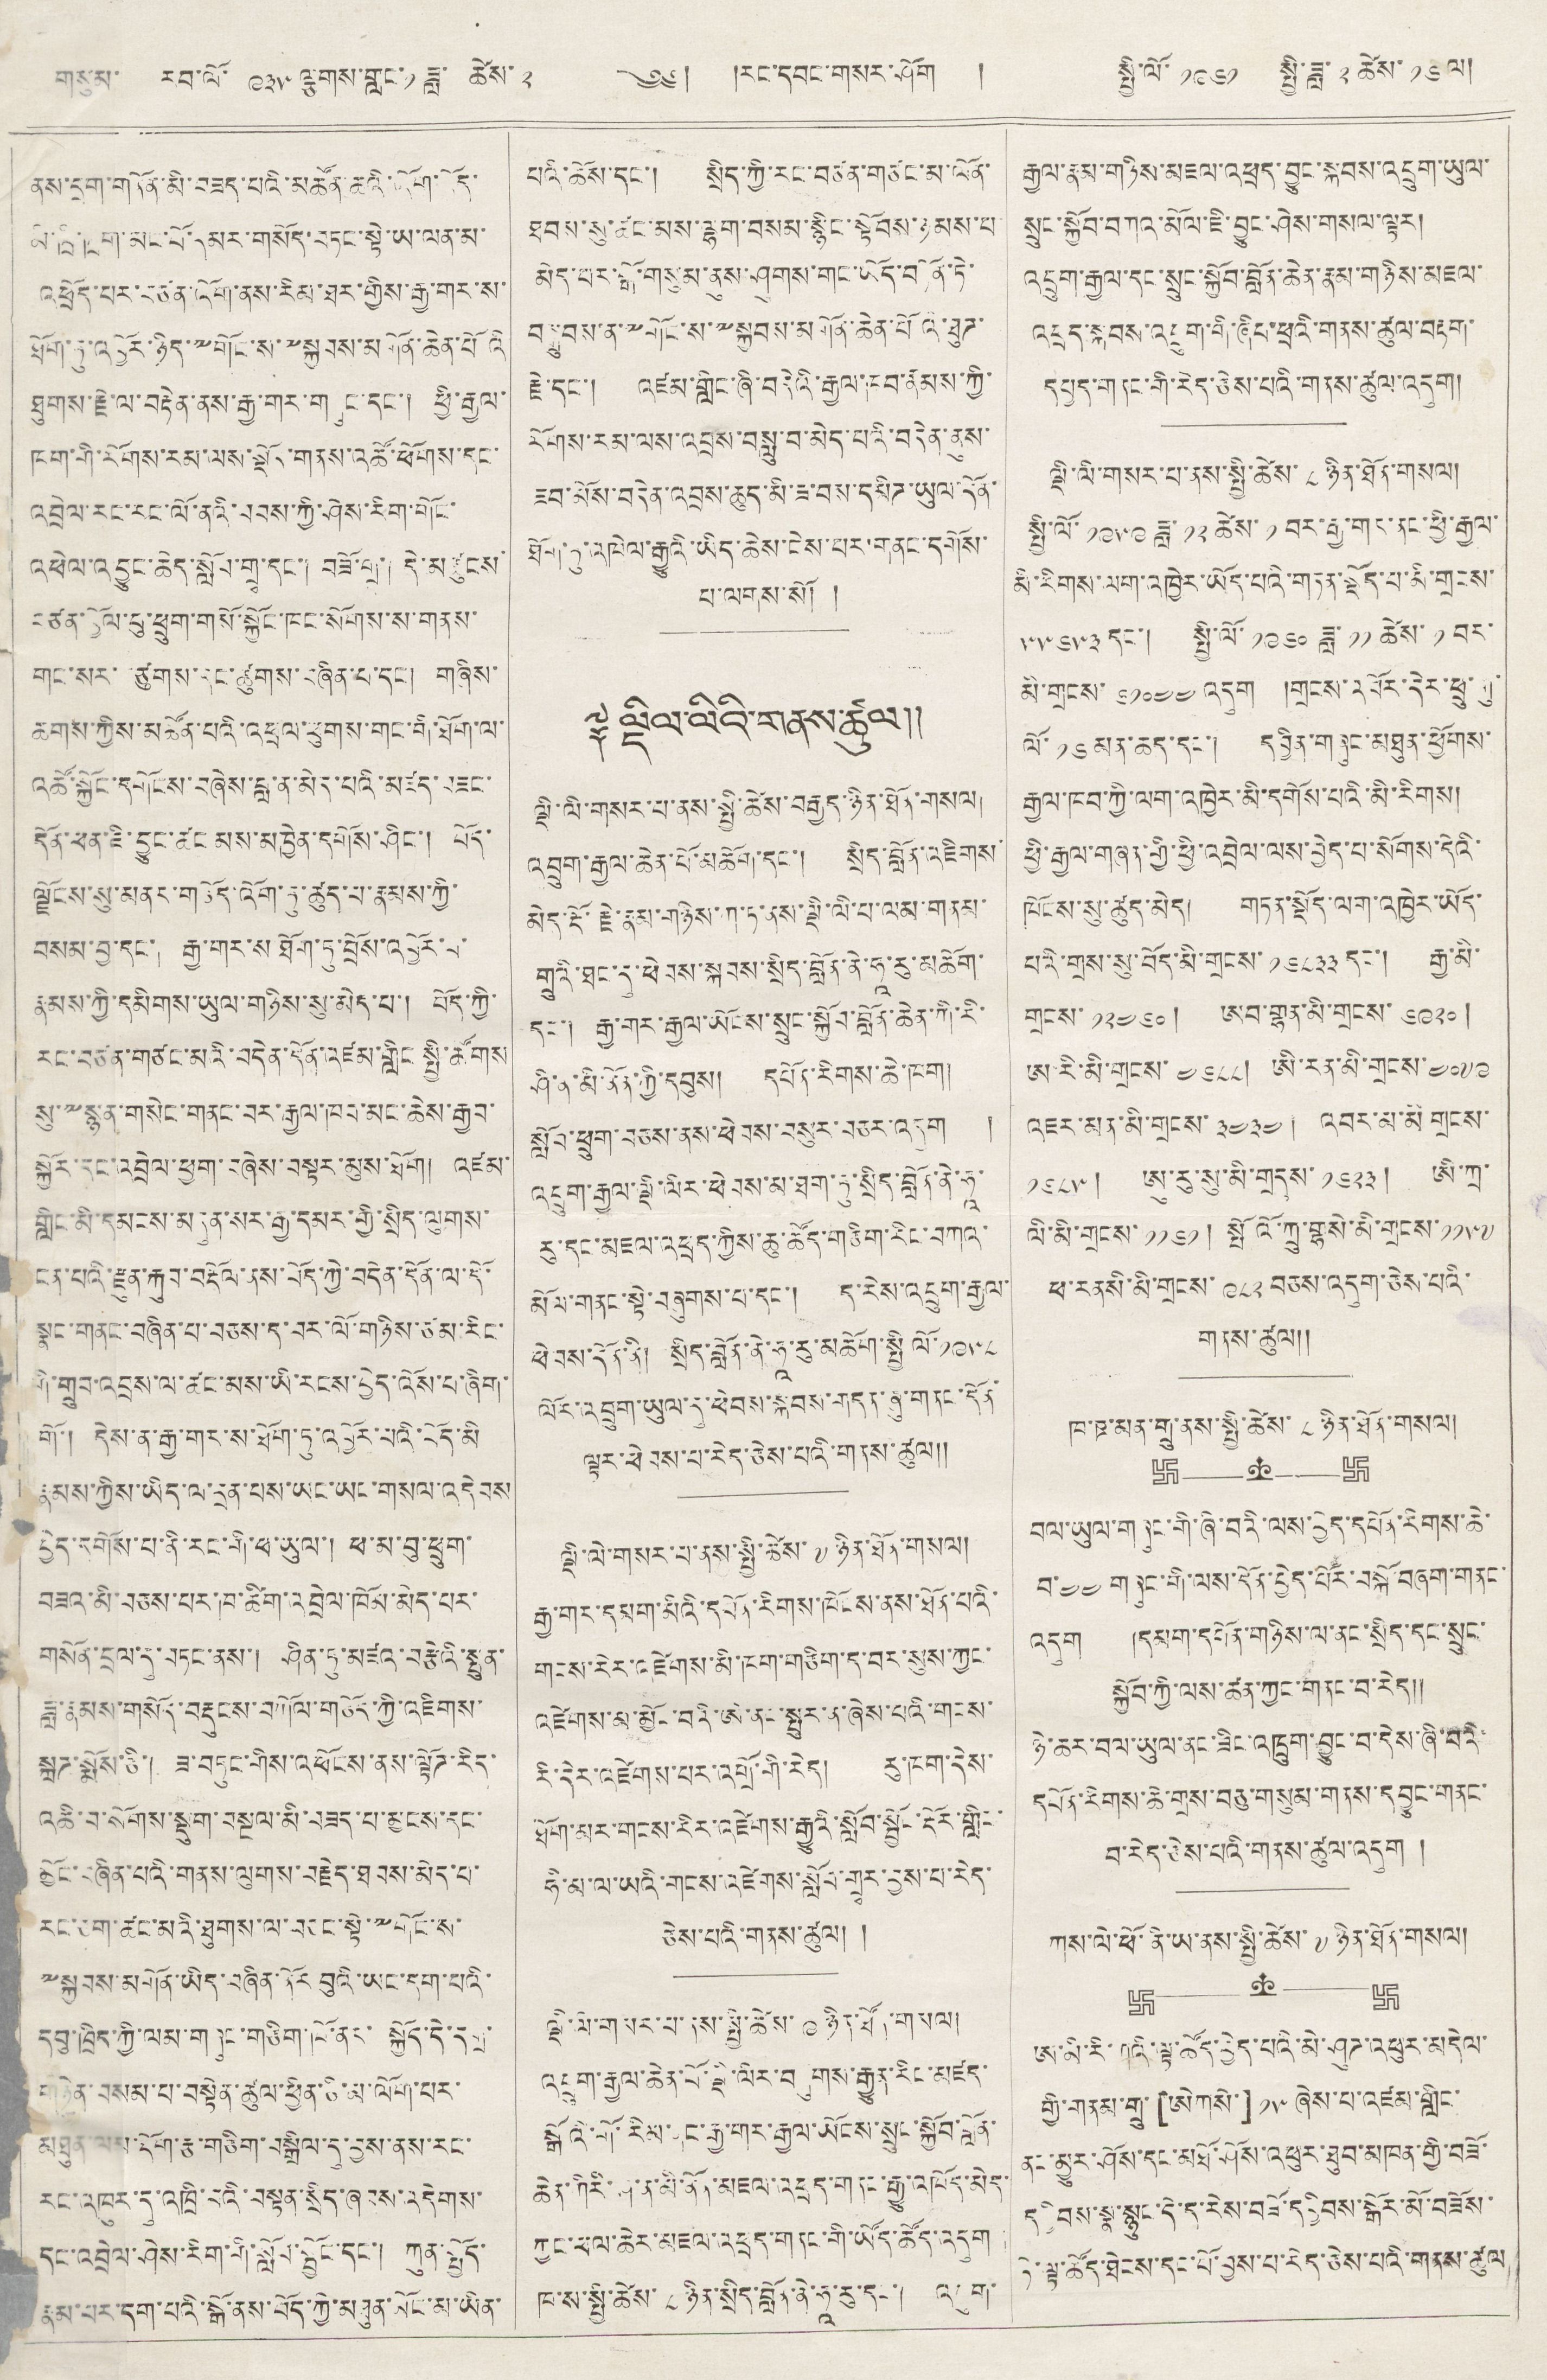གསུམ་ རབ་ལོ་ ༩༣༥ ལྕགས་གླང་༡ཟླ་ ཚེས་ ༢ ༄༅། །རང་དབང་གསར་ཤོག ། སྤྱི་ལོ་ ༡༩༦༡ སྤྱི་ཟླ་ ༢ ཚེས་ ༡༦ ལ།
ནས་དྲག་གནོན་མི་བཟད་པའི་མཚོན་ཆའི་འོག་བོད་
མི་ཁྲི་ཁྲག་མང་པོ་དམར་གསོད་བཏང་སྟེ་ཡ་ལན་མ་
འཕྲོད་པར་མཙན་འོག་ནས་རིམ་ཐར་གྱིས་རྒྱ་གར་ས་
ཐོག་ཏུ་འབྱོར་ཉིད་༸གོང་ས་༸སྐྱབས་མགོན་ཆེན་པོའི་
ཐུགས་རྗེ་ལ་བརྟེན་ནས་རྒྱ་གར་གཞུང་དང་། ཕྱི་རྒྱལ་
ཁག་གི་རོགས་རམ་ལས་སྡོད་གནས་འཚོ་ཕོགས་དང་
འབྲེལ་རང་རང་ལོ་ནའི་བབས་ཀྱི་ཤེས་རིག་གོང་
འཕེལ་འབྱུང་ཆེད་སློབ་གྲྭ་དང་། བཟོ་གྲྭ་། དེ་མཚུངས་
བཙན་བྱོལ་བུ་ཕྲུག་གསོ་སྐྱོང་ཁང་སོགས་ས་གནས་
གང་སར་གཙུགས་དང་ཚུགས་བཞིན་པ་དང་། གཞིས་
ཆགས་ཀྱིས་མཚོན་པའི་འཕྲལ་ཕུགས་གང་གི་ཐོག་ལ་
འཚོ་སྐྱོང་དགོངས་བཞེས་བླ་ན་མེད་པའི་མཛད་བཟང་
དོན་ཕན་ཇི་བྱུང་ཚང་མས་མཁྱེན་དགོས་ཤིང་། བོད་
ལྗོངས་སུ་མནར་གཅོད་འོག་ཏུ་ཚུད་པ་རྣམས་ཀྱི་
བསམ་བྱ་དང་། རྒྱ་གར་ས་ཐོག་ཏུ་བྲོས་འབྱོར་བ་
རྣམས་ཀྱི་དམིགས་ཡུལ་གཉིས་སུ་མེད་པ། བོད་ཀྱི་
རང་བཙན་གཙང་མའི་བདེན་དོན་འཛམ་གླིང་སྤྱི་ཚོགས
སུ་༸སྙན་གསེང་གནང་བར་རྒྱལ་ཁབ་མང་ཆེས་རྒྱབ་
སྐྱོར་དང་འབྲེལ་ཕྱག་བཞེས་བསྟར་མུས་ཐོག། འཛམ་
གླིང་མི་དམངས་མདུན་སར་རྒྱ་དམར་གྱི་སྲིད་ལུགས་
ངན་པའི་རྫུན་རྐུབ་བརྡོལ་ནས་བོད་ཀྱི་བདེན་དོན་ལ་དོ་
སྣང་གནང་བཞིན་པ་བཅས་ད་བར་ལོ་གཉིས་ཙམ་རིང་
གི་གྲུབ་འབྲས་ལ་ཚང་མས་ཡི་རངས་བྱེད་འོས་པ་ཞིག་
གོ་། དེས་ན་རྒྱ་གར་ས་ཐོག་ཏུ་འབྱོར་པའི་བོད་མི
རྣམས་ཀྱིས་ཡིད་ལ་དྲན་པས་ཡང་ཡང་གསལ་འདེབས
བྱེད་དགོས་པ་ནི་རང་གི་ཕ་ཡུལ། ཕ་མ་བུ་ཕྲུག་
བཟའ་མི་བཅས་པར་ཁ་ཚིག་འབྲེལ་ཁོམ་མེད་པར་
གསོན་དྲལ་དུ་བཏང་ནས་། ཤིན་ཏུ་མཛའ་བརྩེའི་སྤུན་
ཟླ་རྣམས་གསོད་བརྡུངས་བཀོལ་གཅོད་ཀྱི་འཇིགས་
སྐྲཊ་སྨོས་ཅི་། ཟ་བཏུང་གིས་འཕོངས་ནས་ལྟོཊ་རིད་
འཆི་བ་སོགས་སྡུག་བསྔལ་མི་བཟད་པ་མྱངས་དང་
མྱོང་བཞིན་པའི་གནས་ལུགས་བརྗེད་ཐབས་མེད་པ་
རང་ཅག་ཚང་མའི་ཐུགས་ལ་བཅང་སྟེ་༸གོང་ས་
༸སྐྱབས་མགོན་ཡིད་བཞིན་ནོར་བུའི་ཡང་དག་པའི་
དབུ་ཁྲིད་ཀྱི་ལམ་གཞུང་གཅིག་ཁོ་ནར་སྐྱོད་དེ་དགྲ་
གཉེན་བསམ་པ་བསྟེན་ཚུལ་ཕྱིན་ཅི་མ་ལོག་པར་
མཐུན་ལམ་རྡོག་རྩ་གཅིག་བསྒྲིལ་དུ་བྱས་ནས་རང་
རང་འཁུར་དུ་འཁྲི་བའི་བསྟན་སྲིད་ཞབས་འདེགས་
དང་འབྲེལ་ཤེས་རིག་གི་སློབ་སྦྱོང་དང་། ཀུན་སྤྱོད་
རྣམ་པར་དག་པའི་སྒོ་ནས་བོད་ཀྱི་མཐུན་མོང་མ་ཡིན་
པའི་ཆོས་དང་། སྲིད་ཀྱི་རང་བཙན་གཙང་མ་ལོན་
ཐབས་སུ་ཚང་མས་ལྷག་བསམ་སྙིང་སྟོབས་ཉམས་པ
མེད་པར་སྒོ་གསུམ་ནུས་ཤུགས་གང་ཡོད་བཏོན་དེ་
བསྒྲུགས་ན་༸གོང་ས་༸སྐྱབས་མགོན་ཆེན་པོའི་ཐུཊ་
རྗེ་དང་། འཛམ་གླིང་ཞི་བདེའི་རྒྱལ་ཁབ་རྣམས་ཀྱི་
རོགས་རམ་ལས་འབྲས་བསླུ་བ་མེད་པའི་བདེན་ནུས་
ཟབ་མོས་བདེན་འབྲས་ཆུད་མི་ཟ་བས་དམིཊ་ཡུལ་དོན་
ཐོག་ཏུ་འཁེལ་རྒྱུའི་ཡིད་ཆེས་ངེས་པར་གནང་དགོས་
པ་ལགས་སོ། །
༈ ལྡིལ་ལིའི་གནས་ཚུལ།།
ལྡི་ལི་གསར་པ་ནས་སྤྱི་ཚེས་བརྒྱད་ཉིན་ཐོན་གསལ།
འབྲུག་རྒྱལ་ཆེན་པོ་མཆོག་དང་། སྲིད་བློན་འཇིགས་
མེད་རྡོ་རྗེ་རྣམ་གཉིས་ཀ་ཏ་ནས་ལྡི་ལི་པ་ལམ་གནམ་
གྲུའི་ཐང་དུ་ཕེབས་སྐབས་སྲིད་བློན་ནེ་ཧཱ་རུ་མཆོག་
དང་། རྒྱ་གར་རྒྱལ་ཡོངས་སྲུང་སྐྱོབ་བློན་ཆེན་ཀི་རི་
ཤི་ན་མི་ནོན་ཀྱི་དབུས། དཔོན་རིགས་ཆེ་ཁག།
སློབ་ཕྲུག་བཅས་ནས་ཕེབས་བསུར་བཅར་འདུག །
འབྲུག་རྒྱལ་ལྡི་ལིར་ཕེབས་མ་ཐག་ཏུ་སྲིད་བློན་ནེ་ཧཱ་
རུ་དང་མཇལ་འཕྲད་ཀྱིས་ཆུ་ཚོད་གཅིག་རིང་བཀའ་
མོལ་གནང་སྟེ་བཞུགས་པ་དང་། ད་རེས་འབྲུག་རྒྱལ་
ཕེབས་དོན་ནི། སྲིད་བློན་ནེ་ཧཱ་རུ་མཆོག་སྤྱི་ལོ་ ༡༩༥༨
ལོར་འབྲུག་ཡུལ་དུ་ཕེབས་སྐབས་གདན་ཞུ་གནང་དོན་
ལྟར་ཕེབས་པ་རེད་ཅེས་པའི་གནས་ཚུལ།།
ལྡི་ལི་གསར་པ་ནས་སྤྱི་ཚེས་ ༧ ཉིན་ཐོན་གསལ།
རྒྱ་གར་དམག་མིའི་དཔོན་རིགས་ཁོངས་ནས་ཐོན་པའི་
གངས་རིར་འཛེགས་མི་ཁག་གཅིག་ད་བར་སུས་ཀྱང་
འཛེགས་མ་མྱོང་བའི་ཨེ་ནང་སྤུར་ན་ཞེས་པའི་གངས་
རི་དེར་འཛེགས་པར་འགྲོ་གི་རེད། རུ་ཁག་དེས་
ཐོག་མར་གངས་རིར་འཛེགས་རྒྱུའི་སློབ་སྦྱོང་རྡོར་གླིང་
ཧི་མ་ལ་ཡའི་གངས་འཛེགས་སློབ་གྲྭར་བྱས་པ་རེད་
ཅེས་པའི་གནས་ཚུལ། །
ལྡི་ལི་གསར་པ་ནས་སྤྱི་ཚེས་ ༩ ཉིན་ཐོན་གསལ།
འབྲུག་རྒྱལ་ཆེན་པོ་ལྡི་ལིར་བཞུགས་རྒྱུན་རིང་མཛད་
སྒོའི་གོ་རིམ་ནང་རྒྱ་གར་རྒྱལ་ཡོངས་སྲུང་སྐྱོབ་བློན་
ཆེན་ཀིརི་ཤི་ན་མི་ནོན་མཇལ་འཕྲད་གནང་རྒྱུ་འཁོད་མེད་
ཀྱང་ཕལ་ཆེར་མཇལ་འཕྲད་གནང་གོ་ཡོད་ཚོད་འདུག་
ཁ་ས་སྤྱི་ཚེས་ ༨ ཉིན་སྲིད་བློན་ནེ་ཧཱ་རུ་དང་། འབྲུག་
རྒྱལ་རྣམ་གཉིས་མཇལ་འཕྲད་བྱུང་སྐབས་འབྲུག་ཡུལ་
སྲུང་སྐྱོབ་བཀའ་མོལ་ཇི་བྱུང་ཤེས་གསལ་ལྟར།
འབྲུག་རྒྱལ་དང་སྲུང་སྐྱོབ་བློན་ཆེན་རྣམ་གཉིས་མཇལ་
འཕྲད་སྐབས་འབྲུག་གི་ཞིབ་ཕྲའི་གནས་ཚུལ་བརྟག་
དཔྱད་གནང་གི་རེད་ཅེས་པའི་གནས་ཚུལ་འདུག།
ལྡི་ལི་གསར་པ་ནས་སྤྱི་ཚེས་ ༨ ཉིན་ཐོན་གསལ།
སྤྱི་ལོ་ ༡༩༥༩ ཟླ་ ༡༢ ཚེས་ ༡ བར་རྒྱ་གར་ནང་ཕྱི་རྒྱལ་
མི་རིགས་ལག་འཁྱེར་ཡོད་པའི་གཏན་སྡོད་པ་མི་གྲངས་
༥༥༦༥༣ དང་། སྤྱི་ལོ་ ༡༩༦༠ ཟླ་ ༡༡ ཚེས་ ༡ བར་
མི་གྲངས་ ༦༡༠༤༤ འདུག །གྲངས་འབོར་དེར་ཕྲུ་གུ་
ལོ་ ༡༦ མན་ཆད་དང་། དབྱིན་གཞུང་མཐུན་ཕྱོགས་
རྒྱལ་ཁབ་ཀྱི་ལག་འཁྱེར་མི་དགོས་པའི་མི་རིགས།
ཕྱི་རྒྱལ་གཞན་གྱི་ཕྱི་འབྲེལ་ལས་བྱེད་པ་སོགས་དེའི་
ཁོངས་སུ་ཚུད་མེད། གཏན་སྡོད་ལག་འཁྱེར་ཡོད་
པའི་གྲས་སུ་བོད་མི་གྲངས་ ༡༦༨༣༣ དང་། རྒྱ་མི་
གྲངས་ ༡༢༤༦༠ ། ཨབ་གྷན་མི་གྲངས་ ༦༩༢༠ །
ཨ་རི་མི་གྲངས་ ༤༦༨༨ ། ཨི་རན་མི་གྲངས་ ༤༠༧༩
འཇར་མན་མི་གྲངས་ ༣༤༣༤ ། འབར་མ་མི་གྲངས་
༡༦༨༥ ། ཨུ་རུ་སུ་མི་གྲདས་ ༡༦༢༣ ། ཨི་ཀྲ་
ལི་མི་གྲངས་ ༡༡༦༡ ། སྤོའོ་ཀྲུ་གྷསེ་མི་གྲངས་ ༡༡༥༦
ཕ་རནསི་མི་གྲངས་ ༩༨༢ བཅས་འདུག་ཅེས་པའི་
གནས་ཚུལ།།
ཁ་ཋ་མན་གྲུ་ནས་སྤྱི་ཚེས་ ༨ ཉིན་ཐོན་གསལ།
བལ་ཡུལ་གཞུང་གི་ཞི་བའི་ལས་བྱེད་དཔོན་རིགས་ཆེ་
བ་༤༤ གཞུང་གི་ལས་དོན་བྱེད་པོར་བསྐོ་བཞག་གནང་
འདུག །དམག་དཔོན་གཉིས་ལ་ནང་སྲིད་དང་སྲུང་
སྐྱོབ་ཀྱི་ལས་ཚན་ཀྱང་གནང་བ་རེད།།
ཉེ་ཆར་བལ་ཡུལ་ནང་ཟིང་འཁྲུག་བྱུང་བ་དེས་ཞི་བའི་
དཔོན་རིགས་ཆེ་གྲས་བཅུ་གསུམ་གནས་དབྱུང་གནང་
བ་རེད་ཅེས་པའི་གནས་ཚུལ་འདུག །
ཀས་ལེ་ཕོ་ནི་ཡ་ནས་སྤྱི་ཚེས་ ༧ ཉིན་ཐོན་གསལ།
ཨ་མི་རི་ཀའི་ལྟ་ཚོད་བྱེད་པའི་མེ་ཤུཊ་འཕུར་མདེལ་
གྱི་གནས་ཚུལ་གྲུ་[ཨེཀསེ་] ༡༥ ཞེས་པ་འཛམ་གླིང་
ནང་མྱུར་ཤོས་དང་མཐོ་ཤོས་འཕུར་ཐུབ་མཁན་གྱི་བཟོ་
དབྱིངས་སྣ་སྙུང་དེ་ད་རེས་བཟོ་དབྱིབས་སྒོར་མོ་བཟོས་
དེ་ལྟ་ཚོད་ཐེངས་དང་པོ་བྱས་པ་རེད་ཅེས་པའི་གནས་ཚུལ
